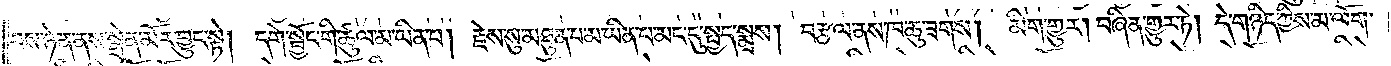བས་ཉེན་ནས་སྒྲེན་མོར་བྱུང་སྟེ། དགེ་སྦྱོང་གི་ཚུལ་མ་ཡིན་པ། རྗེས་སུ་མཐུན་པ་མ་ཡིན་པ་མང་དུ་སྤྱད་སྨྲས་པ། བརྩལ་ནས་ཁ་ཆུ་ཟགས། མིག་གྱུར། བཞིན་གྱུར་ཏེ། དེ་གཉིད་ཀྱིས་མ་ལོག་
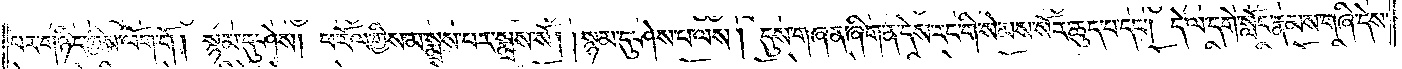པར་གཉིད་ཀྱིས་ལོག་གོ། སྙམ་དུ་ཤེས། ཕ་རོལ་གྱིས་མ་སྨྲས་པར་སྨྲས་སོ། །སྙམ་དུ་ཤེས་པ་ལས། དུས་གཞན་ཞིག་ན་དེས་རང་གི་སེམས་སོར་ཆུད་པ་དང༌། དེ་ལ་དགེ་སློང་རྣམས་གཞི་དེས་
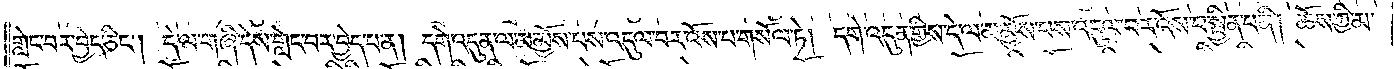གླེང་བར་བྱེད་ཅིང༌། དེ་ལ་གཞི་དེས་གླེང་བར་བྱེད་པ་ན། དགེ་འདུན་ལ་མ་མྱོས་པས་འདུལ་བར་འོས་པ་གསོལ་ཏེ། དགེ་འདུན་གྱིས་དེ་ལ་མ་མྱོས་པས་འདུལ་བར་འོས་པ་སྦྱིན་པ་ནི། ཆོས་ཀྱི་མ་
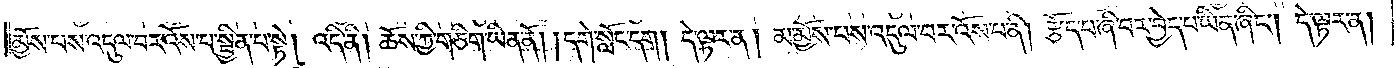མྱོས་པས་འདུལ་བར་འོས་པ་སྦྱིན་པ་སྟེ། འདི་ནི། ཆོས་ཀྱི་གཅིག་ཡིན་ནོ། །དགེ་སློང་དག །དེ་ལྟར་ན། མ་མྱོས་པས་འདུལ་བར་འོས་པ་ནི། རྩོད་པ་ཞི་བར་བྱེད་པ་ཡིན་ཞིང༌། དེ་ལྟར་ན།
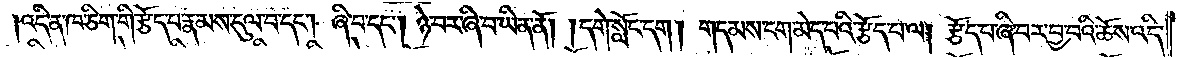།འདི་ན་ཁ་ཅིག་གི་རྩོད་པ་རྣམས་དུལ་བ་དང༌། ཞི་བ་དང༌། ཉེ་བར་ཞི་བ་ཡིན་ནོ། །དགེ་སློང་དག །གདམས་ངག་མེད་པའི་རྩོད་པ་ལ། རྩོད་པ་ཞི་བར་བྱ་བའི་ཆོས་འདི་
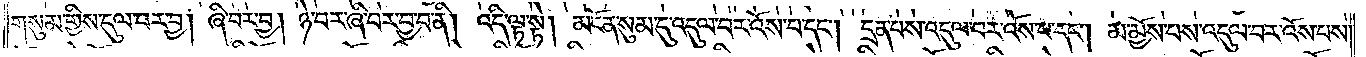གསུམ་གྱིས་དུལ་བར་བྱ། ཞི་བར་བྱ། ཉེ་བར་ཞི་བར་བྱ་བ་ནི། འདི་ལྟ་སྟེ། མངོན་སུམ་དུ་འདུལ་བར་འོས་པ་དང༌། དྲན་པས་འདུལ་བར་འོས་པ་དང༌། མ་མྱོས་པས་འདུལ་བར་འོས་པས་
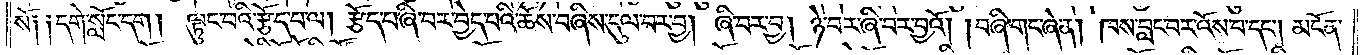སོ། །དགེ་སློང་དག །ལྟུང་བའི་རྩོད་པ་ལ། རྩོད་པ་ཞི་བར་བྱེད་པའི་ཆོས་བཞིས་དུལ་བར་བྱ། ཞི་བར་བྱ། ཉེ་བར་ཞི་བར་བྱའོ། །བཞི་གང་ཞེ་ན། ཁས་བླང་པར་འོས་པ་དང༌། མངོན་
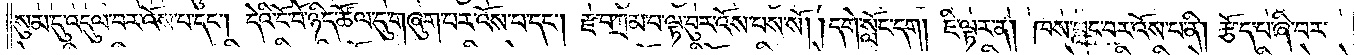སུམ་དུ་འདུལ་བར་འོས་པ་དང༌། དེའི་ངོ་བོ་ཉིད་ཚོལ་དུ་གཞུག་པར་འོས་པ་དང༌། རྫ་བཀྲམ་པ་ལྟ་བུར་འོས་པས་སོ། །དགེ་སློང་དག །ཇི་ལྟར་ན། ཁས་བླང་བར་འོས་པ་ནི། རྩོད་པ་ཞི་བར་
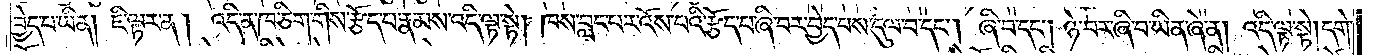བྱེད་པ་ཡིན། ཇི་ལྟར་ན། འདི་ན་ཁ་ཅིག་གིས་རྩོད་པ་རྣམས་འདི་ལྟ་སྟེ། ཁས་བླང་པར་འོས་པའི་རྩོད་པ་ཞི་བར་བྱེད་པས་དུལ་བ་དང༌། ཞི་བ་དང༌། ཉེ་བར་ཞི་བ་ཡིན་ཞེ་ན། འདི་ལྟ་སྟེ། དགེ་
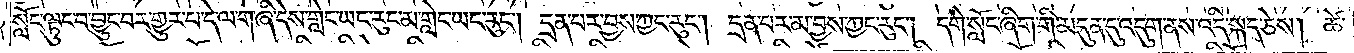སློང་ལྟུང་བ་བྱུང་བར་གྱུར་པ་དེ་ལ་གཞི་དེས་གླེང་ཡང་རུང་མ་གླེང་ཡང་རུང༌། དྲན་པར་བྱས་ཀྱང་རུང༌། དྲན་པར་མ་བྱས་ཀྱང་རུང༌། དགེ་སློང་ཞིག་གི་མདུན་དུ་འདུག་ནས་འདི་སྐད་ཅེས། ཚེ་
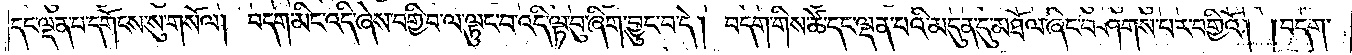དང་ལྡན་པ་དགོངས་སུ་གསོལ། བདག་མིང་འདི་ཞེས་བགྱི་བ་ལ་ལྟུང་བ་འདི་ལྟ་བུ་ཞིག་བྱུང་བ་དེ། བདག་གིས་ཚེ་དང་ལྡན་པའི་མདུན་དུ་མཐོལ་ཞིང་བཤགས་པར་བགྱིའོ། །བདག་
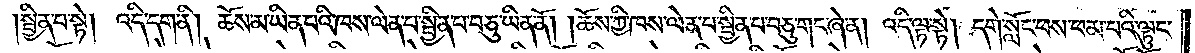སྦྱིན་པ་སྟེ། འདི་དག་ནི། ཆོས་མ་ཡིན་པའི་ཁས་ལེན་པ་སྦྱིན་པ་བཅུ་ཡིན་ནོ། །ཆོས་ཀྱི་ཁས་ལེན་པ་སྦྱིན་པ་བཅུ་གང་ཞེ་ན། འདི་ལྟ་སྟེ། དགེ་སློང་ཕས་ཕམ་པའི་ལྟུང་
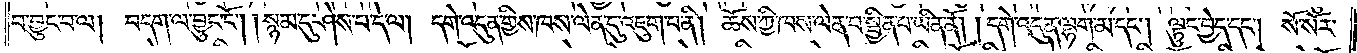བ་བྱུང་བ་ལ། བདག་ལ་བྱུང་ངོ༌། །སྙམ་དུ་ཤེས་པ་དེ་ལ། དགེ་འདུན་གྱི་ཁས་ལེན་དུ་འཇུག་པ་ནི། ཆོས་ཀྱི་ཁས་ལེན་པ་སྦྱིན་པ་ཡིན་ནོ། །དགེ་འདུན་ལྷག་མ་དང༌། ལྟུང་བྱེད་དང༌། སོ་སོར་
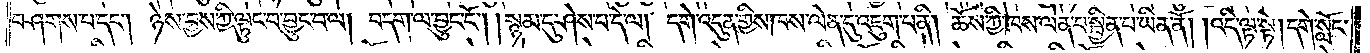བཤགས་པ་དང༌། ཉེས་བྱས་ཀྱི་ལྟུང་བ་བྱུང་བ་ལ། བདག་ལ་བྱུང་ངོ༌། །སྙམ་དུ་ཤེས་པ་དེ་ལ། དགེ་འདུན་གྱིས་ཁས་ལེན་དུ་འཇུག་པ་ནི། ཆོས་ཀྱི་ཁས་ལེན་པ་སྦྱིན་པ་ཡིན་ནོ། །འདི་ལྟ་སྟེ། དགེ་སློང་
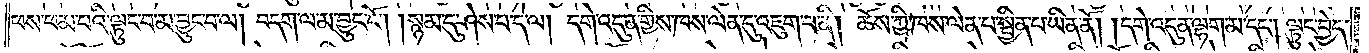ཕས་ཕམ་པའི་ལྟུང་བ་མ་བྱུང་བ་ལ། བདག་ལ་མ་བྱུང་ངོ༌། །སྙམ་དུ་ཤེས་པ་དེ་ལ། དགེ་འདུན་གྱིས་ཁས་ལེན་དུ་འཇུག་པ་ནི། ཆོས་ཀྱི་ཁས་ལེན་པ་སྦྱིན་པ་ཡིན་ནོ། །དགེ་འདུན་ལྷག་མ་དང༌། ལྟུང་བྱེད་
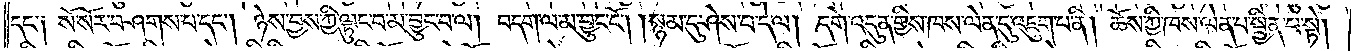དང༌༑ སོ་སོར་བཤགས་པ་དང༌། ཉེས་བྱས་ཀྱི་ལྟུང་བ་མ་བྱུང་བ་ལ། བདག་ལ་མ་བྱུང་ངོ༌། །སྙམ་དུ་ཤེས་པ་དེ་ལ། དགེ་འདུན་གྱིས་ཁས་ལེན་དུ་འཇུག་པ་ནི། ཆོས་ཀྱི་ཁས་ལེན་པ་སྦྱིན་པ་སྟེ།
